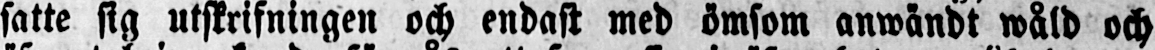satte sig utskrifningen och endast med ömsom anwändt wåld och
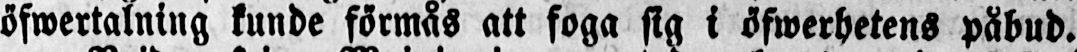öfwertalning kunde förmås att foga sig i öfwerhetens påbud.
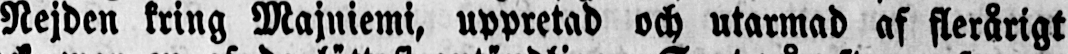Nejden kring Majniemi, uppretad och utarmad af flerårigt
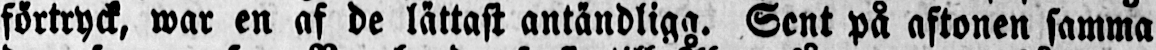förttyck, war en af de lättast antändliga. Sent på aftonen samma
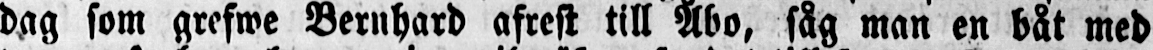dag som grefwe Bernhard afrest till Åbo, såg man en båt med
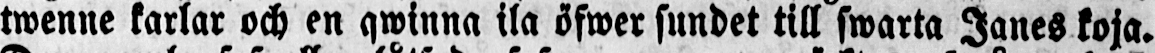twenne karlar och en qwinna ila öfwer sundet till swarta Janes koja.
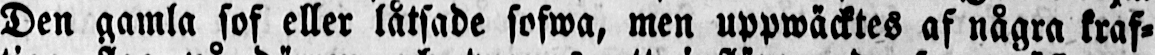Den gamla sof eller låtsade sofwa, men uppwäcktes af några kraf-
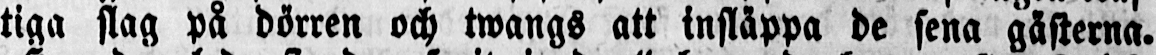tiga slag på dörren och twangs att insläppa de sena gästerna.
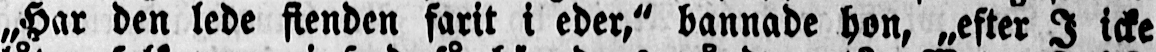„Har den lede fienden farit i eder," bannade hon, „efter I icke
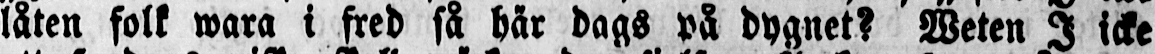låten folk wara i fred så här dags på dygnet? Weten I icke
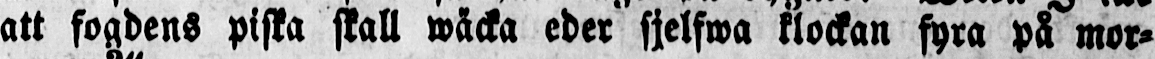att fogdens piska skall wäcka eder sjelfwa klockan fyra på mor-
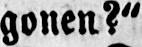gonen?"
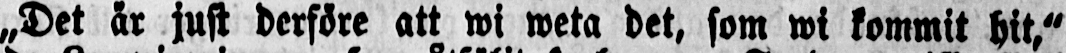„Det är just derföre att wi weta det, som wi kommit hit,"
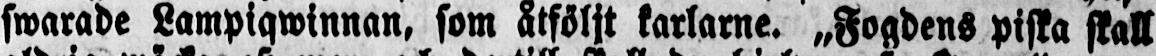swarade Lampiqwinnan, som åtföljt karlarne. „Fogdens piska skall
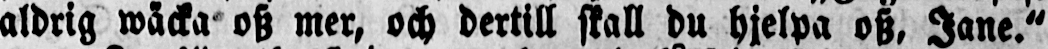aldrig wäcka osz mer, och dertill skall du hjelpa osz, Jane."
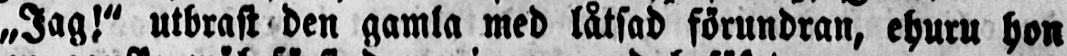"Jag!" utbrast den gamla med låtsad förundran, ehuru hon
